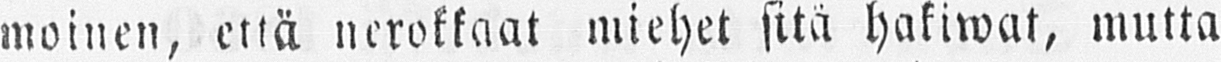moinen, että nerokkaat miehet sitä hakiwat, mutta
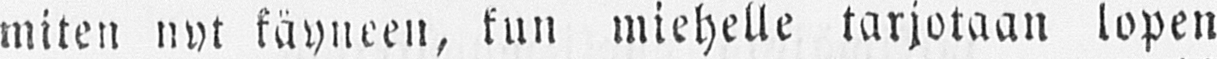miten nyt käyneen, kun miehelle tarjotaan lopen
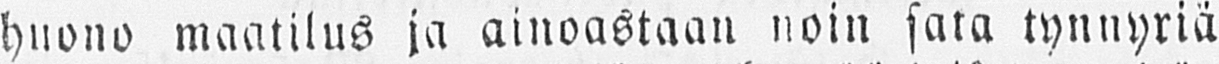huono maatilus ja ainoastaan noin sata tynnyriä
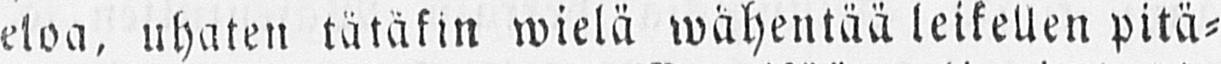eloa, uhaten tätäkin wielä wähentää leikellen pitä-
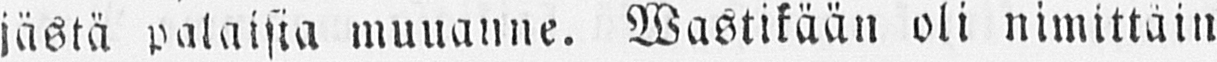jästä palaisia muuanne. Wastikään oli nimittäin
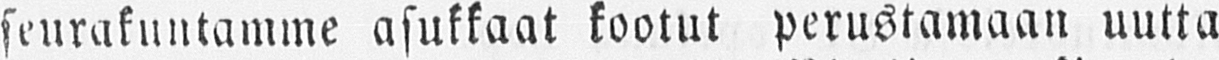seurakuntamme asukkaat kootut perustamaan uutta
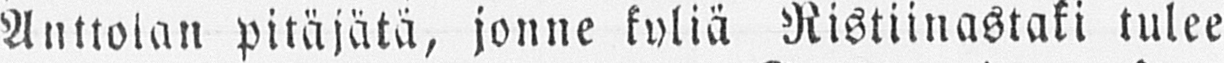Anttolan pitäjätä, jonne kyliä Ristiinastaki tulee
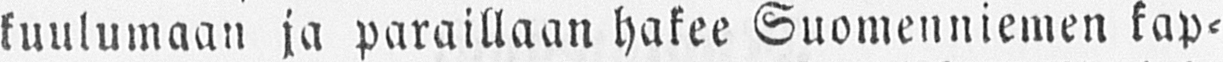kuulumaan ja paraillaan hakee Suomenniemen kap-
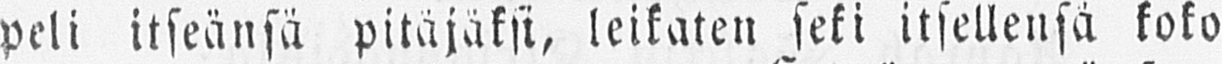peli itseänsä pitäjäksi, leikaten seki itsellensä koko
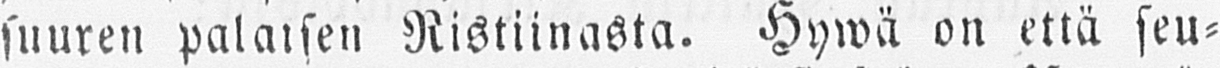suuren palaisen Ristiinasta. Hywä on että seu-
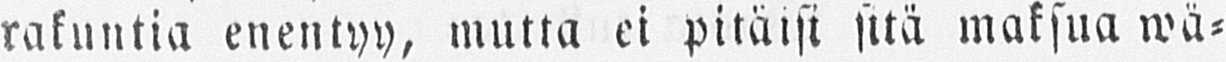rakuntia enentyy, mutta ei pitäisi sitä maksua wä-
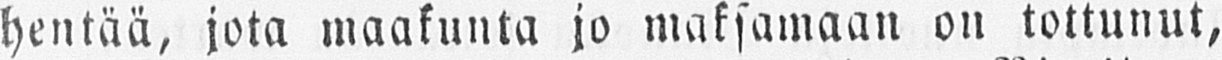hentää, jota maakunta jo maksamaan on tottunut,
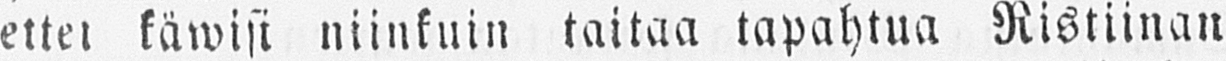ettet käwisi niinkuin taitaa tapahtua Ristiinan
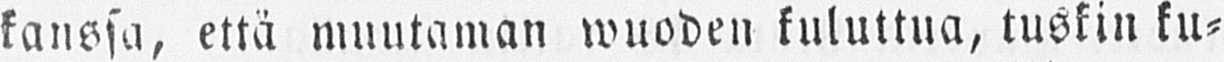kanssa, että muutaman wuoden kuluttua, tuskin ku-
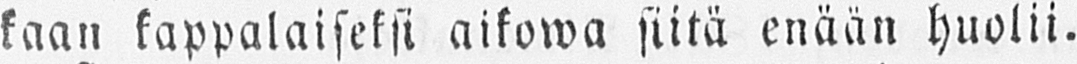kaan kappalaiseksi aikowa siitä enään huolii.
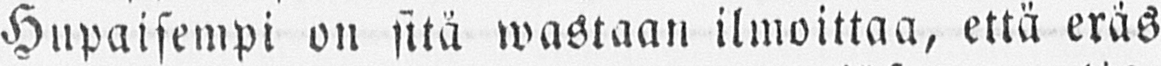Hupaisempi on sitä wastaan ilmoittaa, että eräs
